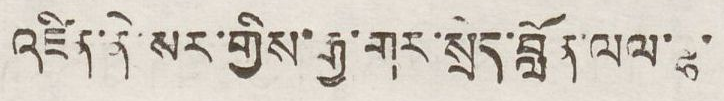འཛིན་ནེ་སར་གྱིས་རྒྱ་གར་སྲིད་བློན་ལལ་ལྷ་
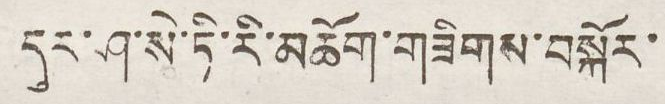དར་ཤ་སེ་ཏི་རི་མཆོག་གཟིགས་བསྐོར་
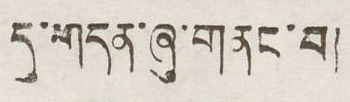དུ་གདན་ཞུ་གནང་བ།
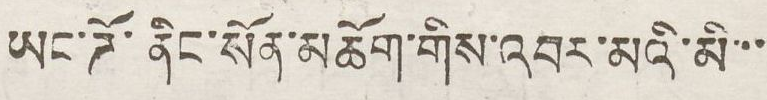ཡང་ཌོ་ནིང་སོན་མཆོག་གིས་འབར་མའི་མི་་་
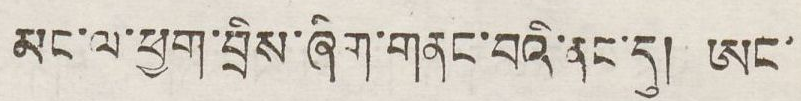མང་ལ་ཕྱག་བྲིས་ཞིག་གནང་བའི་ནང་དུ། ཨང་
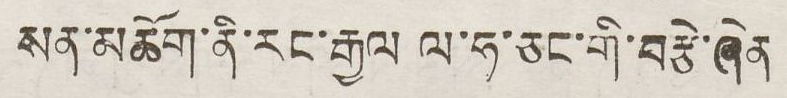སན་མཆོག་ནི་རང་རྒྱལ ལ་ཧ་ཅང་གི་བརྩེ་ཞེན
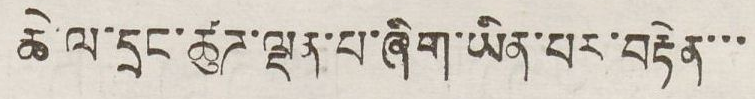ཆེ་ལ་དྲང་ཚུཊ་ལྡན་པ་ཞིག་ཡིན་པར་བརྟེན་་་
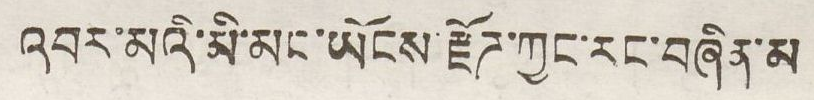འབར་མའི་མི་མང་ཡོངས་རྫོཊ་ཀྱང་རང་བཞིན་མ
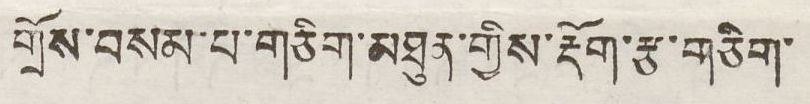གྲོས་བསམ་པ་གཅིག་མཐུན་གྱིས་རྡོག་རྩ་གཅིག་
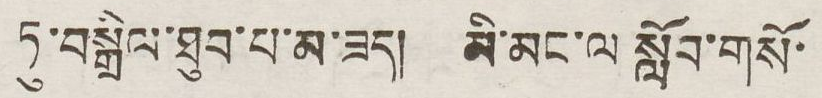ཏུ་བསྒྲིལ་ཐུབ་པ་མ་ཟད། མི་མང་ལ སློབ་གསོ་
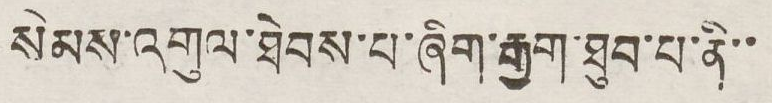སེམས་འགུལ་ཐེབས་པ་ཞིག་རྒྱག་ཐུབ་པ་ནི་་
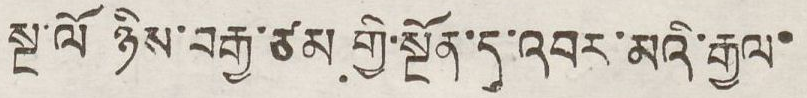སྔ་ལོ ཉིས་བརྒྱ་ཙམ གྱི་སྔོན་དུ་འབར་མའི་རྒྱལ་
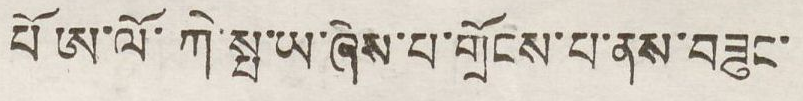པོ ཨ་ལོ་ཀེ་སྤུ་ཡ་ཞེས་པ་གྲོངས་པ་ནས་བཟུང་
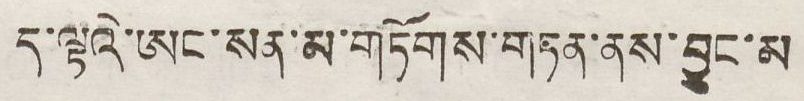ད་ལྟའི་ཨང་སན་མ་གཏོགས་གཏན་ནས་བྱུང་མ
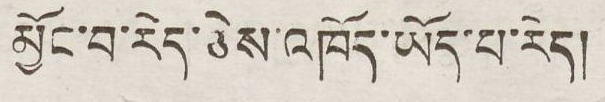མྱོང་བ་རེད་ཅེས་འཁོད་ཡོད་པ་རེད།།
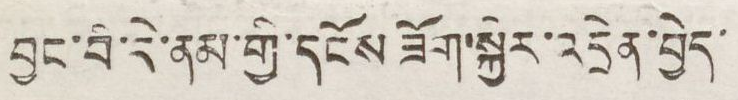བྱུང་བི་དེ་ནམ་གྱི་དངོས ཟོག་སྐྱེར་འདྲེན་བྱེད་
